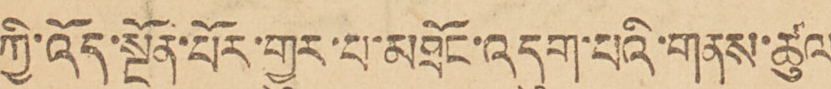ཀྱི་འོད་སྔོན་པོར་གྱུར་པ་མཐོང་འདུག་པའི་གནས་ཆུལ།
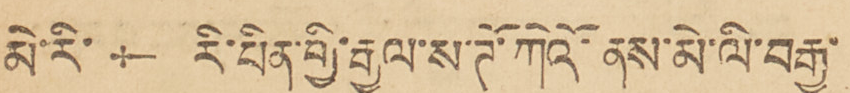མེ་རི་ † རི་པིན་གྱི་རྒྱལ་ས་ཊོ་ཀེའོ་ན་མེ་ལི་བརྒྱ་
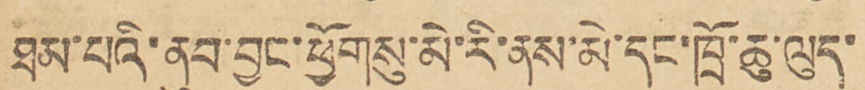ཐམ་པའི་ནུབ་བྱང་ཕྱོགསུ་མེ་རི་ནས་མེ་དང་ཁྲོ་ཆུ་ལུད་
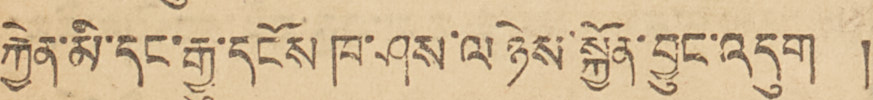རྐྱེན་མི་དང་རྒྱུ་དངོས་ཁ་ཤས་ལ་ཉེས་སྐྱིན་བྱུང་འདུག །
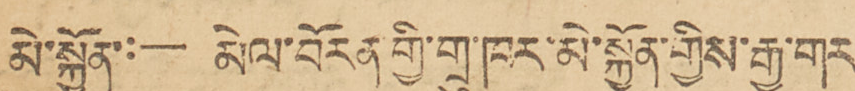མེ་སྐྱོན་:— མེལ་བོརན གྱི་གྲུ་ཁར་མེ་སྐྱོན་གྱིས་རྒྱ་གར་
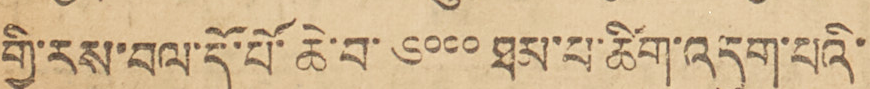གྱི་རས་བལ་དོ་པོ་ཆེ་བ་ ༦༠༠༠ ཐམ་པ་ཚིག་འདུག་པའི་
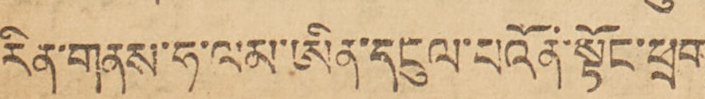རིན་གནས་ཧ་ལམ་ཨིན་དངུལ་པའོན་སྟོང་ཕྲག་
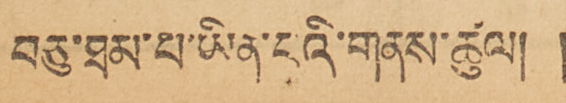བཅུ་ཐམ་པ་ཡིན་པའི་གནས་ཚུལ། །
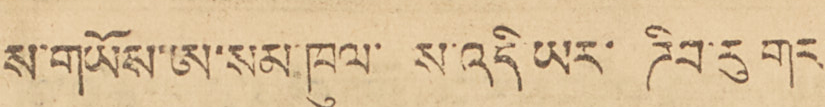ས་གཡོས་ཨ་སམ་ཁུལ་ ས་འདི་ཡར་ ཌིབ་རུ གར་
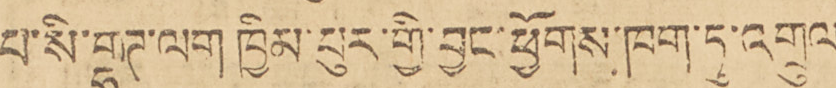པ་སི་གྷཊ་ལག ཁྱིམ་པུར་གྱི་བྱང་ཕྱོགས་ཁག་ཏུ་འགྲུལ་
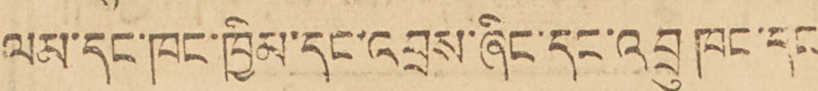ལམ་དང་ཁང་ཁྱིམ་དང་འབྲས་ཞིང་དང་འབྲུ ཁང་དང་
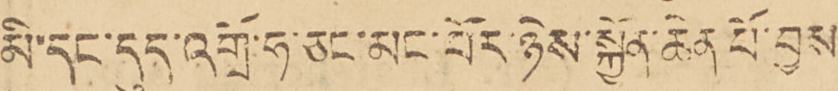མི་དང་དུད་འགྲོ་ཧ་ཅང་མང་པོར་ཉེས་སྐྱོན་ཆེན པོ་བྱས་
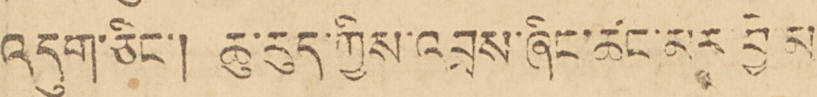འདུག་ཅིང་། ཆུ་རུད་ཀྱིས་འབྲས་ཞིང་ཚང་མར བྱེ མ་
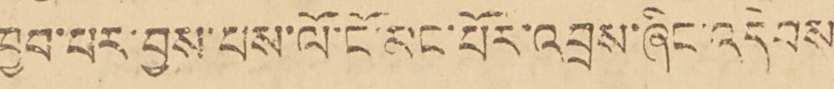ཁྱབ་པར་བྱས་པས་ལོ་ངོ་མང་པོར་འབྲས་ཞིང་འདེབས་
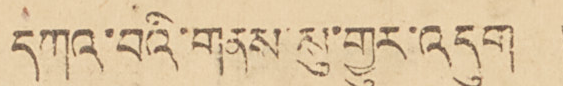དཀའ་བའི་གནས་སུ་གྱུར་འདུག །
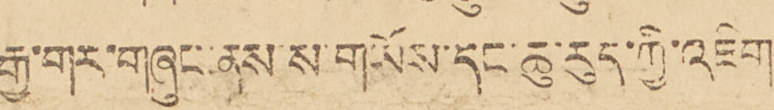རྒྱ་གར་གཞུང་ནས་ས་གཡོས་དང་ཆུ་རུད་ཀཡི་འཇིག་
